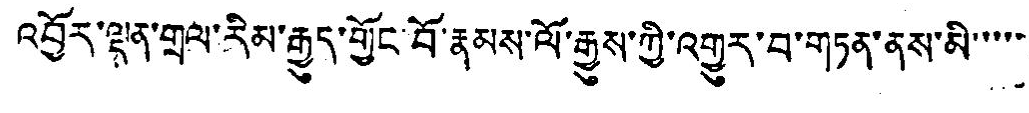འབྱོར་ལྡན་གྲལ་རིམ་རྒྱུད་གྱོང་བོ་རྣམས་ལོ་རྒྱུས་ཀྱི་འགྱུར་བ་གཏན་ནས་་མི་་་་་
